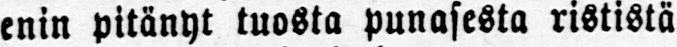enin pitänyt tuosta punasesta rististä
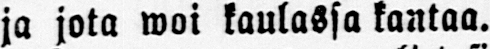ja jota woi kaulassa kantaa.
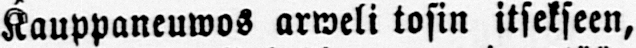Kauppaneuwos arweli tosin itsekseen,
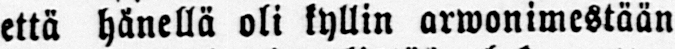että hänellä oli kyllin arwonimestään
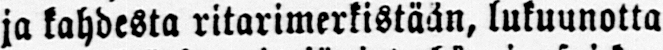ja kahdesta ritarimerkistään, lukuunotta
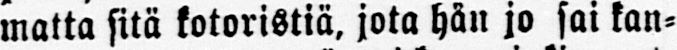matta sitä kotoristiä, jota hän jo sai kan-
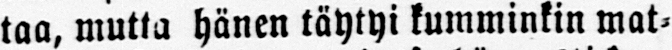taa, mutta hänen täytyi kumminkin mat-
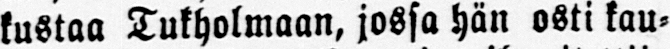kustaa Tukholmaan, jossa hän osti kau-
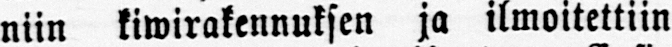niin kiwirakennuksen ja ilmoitettiin
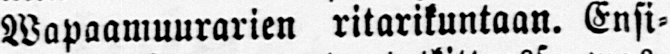Wapaamuurarien ritarikuntaan. Ensi-
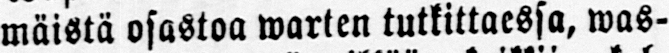mäistä osastoa warten tutkittaessa, was-
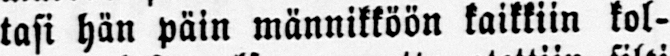tasi hän päin männikköön kaikkiin kol-
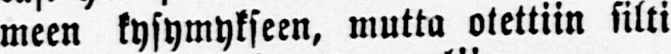meen kysymykseen, mutta otettiin silti
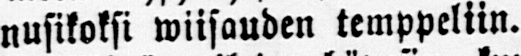nusikoksi wiisauden temppeliin.
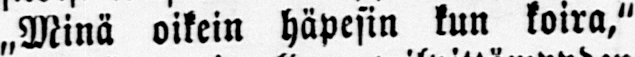„Minä oikein häpesin kun koira,"
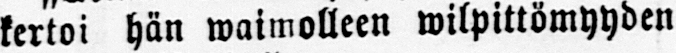kertoi hän waimolleen wilpittömyyden
